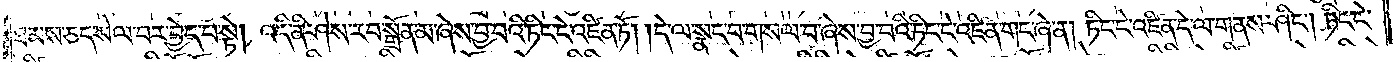ཐམས་ཅད་སེལ་བར་བྱེད་པ་སྟེ། འདི་ནི་ཤེས་རབ་སྒྲོན་མ་ཞེས་བྱ་བའི་ཏིང་ངེ་འཛིན་ཏོ། །དེ་ལ་སྣང་བ་གསལ་བ་ཞེས་བྱ་བའི་ཏིང་ངེ་འཛིན་གང་ཞེ་ན། ཏིང་ངེ་འཛིན་དེ་ལ་གནས་ཤིང༌། ཏིང་ངེ་
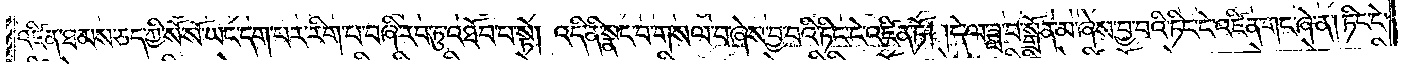འཛིན་ཐམས་ཅད་ཀྱི་སོ་སོ་ཡང་དག་པར་རིག་པ་བཞི་རབ་ཏུ་འཐོབ་པ་སྟེ། འདི་ནི་སྣང་བ་གསལ་བ་ཞེས་བྱ་བའི་ཏིང་ངེ་འཛིན་ཏོ། །དེ་ལ་ཟླ་བ་སྒྲོན་མ་ཞེས་བྱ་བའི་ཏིང་ངེ་འཛིན་གང་ཞེ་ན། ཏིང་ངེ་
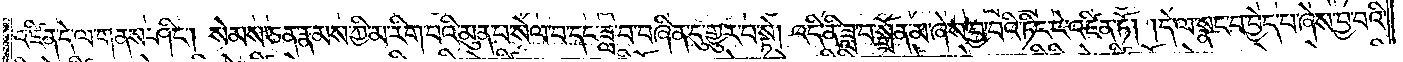འཛིན་དེ་ལ་གནས་ཤིང༌། སེམས་ཅན་རྣམས་ཀྱི་མ་རིག་པའི་མུན་པ་སེལ་བ་དང་ཟླ་བ་བཞིན་དུ་གྱུར་བ་སྟེ། འདི་ནི་ཟླ་བ་སྒྲོན་མ་ཞེས་བྱ་བའི་ཏིང་ངེ་འཛིན་ཏོ། །དེ་ལ་སྣང་བ་བྱེད་པ་ཞེས་བྱ་བའི་
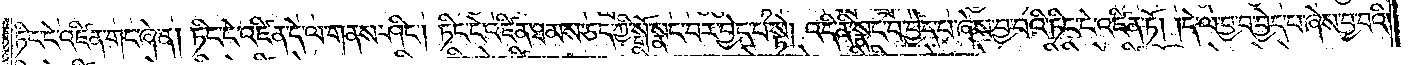ཏིང་ངེ་འཛིན་གང་ཞེ་ན། ཏིང་ངེ་འཛིན་དེ་ལ་གནས་ཤིང༌། ཏིང་ངེ་འཛིན་ཐམས་ཅད་ཀྱི་སྒོ་སྣང་བར་བྱེད་པ་སྟེ། འདི་ནི་སྣང་བ་བྱེད་པ་ཞེས་བྱ་བའི་ཏིང་ངེ་འཛིན་ཏོ། །དེ་ལ་བྱ་བ་བྱེད་པ་ཞེས་བྱ་བའི་
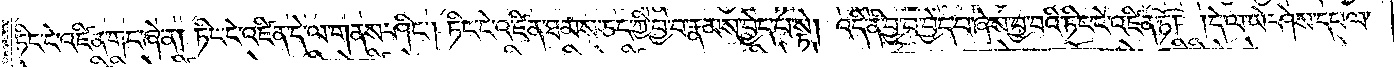ཏིང་ངེ་འཛིན་གང་ཞེ་ན། ཏིང་ངེ་འཛིན་དེ་ལ་གནས་ཤིང༌། ཏིང་ངེ་འཛིན་ཐམས་ཅད་ཀྱི་བྱ་བ་རྣམས་བྱེད་པ་སྟེ། འདི་ནི་བྱ་བ་བྱེད་པ་ཞེས་བྱ་བའི་ཏིང་ངེ་འཛིན་ཏོ། །དེ་ལ་ཡེ་ཤེས་དཔལ་
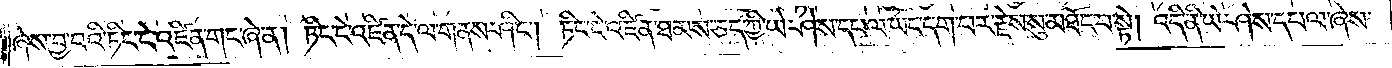ཞེས་བྱ་བའི་ཏིང་ངེ་འཛིན་གང་ཞེ་ན། ཏིང་ངེ་འཛིན་དེ་ལ་གནས་ཤིང༌། ཏིང་ངེ་འཛིན་ཐམས་ཅད་ཀྱི་ཡེ་ཤེས་དཔལ་ཡང་དག་པར་རྗེས་སུ་མཐོང་བ་སྟེ། འདི་ནི་ཡེ་ཤེས་དཔལ་ཞེས་
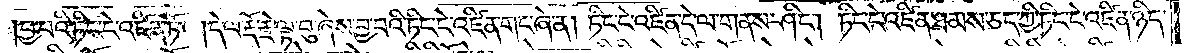བྱ་བའི་ཏིང་ངེ་འཛིན་ཏོ། །དེ་ལ་རྡོ་རྗེ་ལྟ་བུ་ཞེས་བྱ་བའི་ཏིང་ངེ་འཛིན་གང་ཞེ་ན། ཏིང་ངེ་འཛིན་དེ་ལ་གནས་ཤིང༌། ཏིང་ངེ་འཛིན་ཐམས་ཅད་ཀྱི་ཏིང་ངེ་འཛིན་ཉིད་
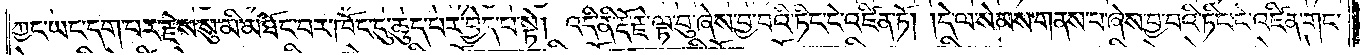ཀྱང་ཡང་དག་པར་རྗེས་སུ་མི་མཐོང་བར་ཁོང་དུ་ཆུད་པར་བྱེད་པ་སྟེ། འདི་ནི་རྡོ་རྗེ་ལྟ་བུ་ཞེས་བྱ་བའི་ཏིང་ངེ་འཛིན་ཏོ། །དེ་ལ་སེམས་གནས་པ་ཞེས་བྱ་བའི་ཏིང་ངེ་འཛིན་གང་
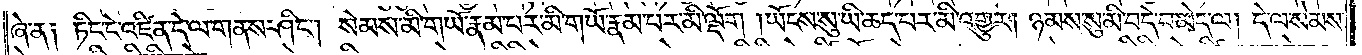ཞེ་ན། ཏིང་ངེ་འཛིན་དེ་ལ་གནས་ཤིང༌། སེམས་མི་གཡོ་རྣམ་པར་མི་གཡོ་རྣམ་པར་མི་ལྡོག །ཡོངས་སུ་ཡི་ཆད་པར་མི་འགྱུར། ཉམས་སུ་མི་བདེ་བ་མེད་ལ། དེ་ལ་སེམས་
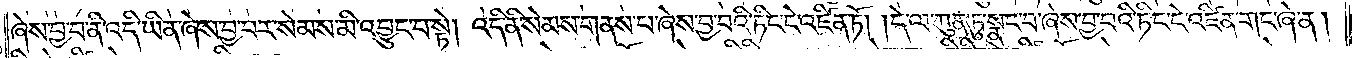ཞེས་བྱ་བ་ནི་འདི་ཡིན་ཞེས་བྱ་བར་སེམས་མི་འབྱུང་བ་སྟེ། འདི་ནི་སེམས་གནས་པ་ཞེས་བྱ་བའི་ཏིང་ངེ་འཛིན་ཏོ། །དེ་ལ་ཀུན་ཏུ་སྣང་བ་ཞེས་བྱ་བའི་ཏིང་ངེ་འཛིན་གང་ཞེ་ན།
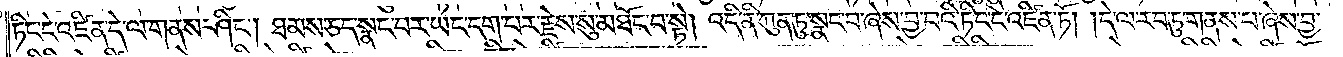ཏིང་ངེ་འཛིན་དེ་ལ་གནས་ཤིང༌། ཐམས་ཅད་སྣང་བར་ཡང་དག་པར་རྗེས་སུ་མཐོང་བ་སྟེ། འདི་ནི་ཀུན་ཏུ་སྣང་བ་ཞེས་བྱ་བའི་ཏིང་ངེ་འཛིན་ཏོ། །དེ་ལ་རབ་ཏུ་གནས་པ་ཞེས་བྱ་
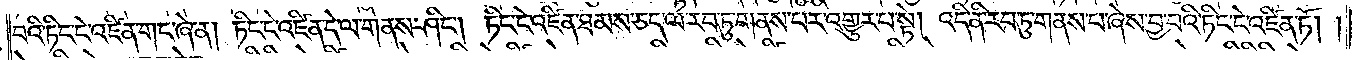བའི་ཏིང་ངེ་འཛིན་གང་ཞེ་ན། ཏིང་ངེ་འཛིན་དེ་ལ་གནས་ཤིང༌། ཏིང་ངེ་འཛིན་ཐམས་ཅད་ལ་རབ་ཏུ་གནས་པར་འགྱུར་བ་སྟེ། འདི་ནི་རབ་ཏུ་གནས་པ་ཞེས་བྱ་བའི་ཏིང་ངེ་འཛིན་ཏོ། །
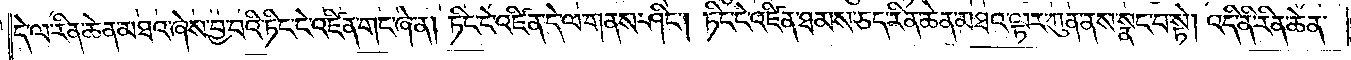དེ་ལ་རིན་ཆེན་མཐའ་ཞེས་བྱ་བའི་ཏིང་ངེ་འཛིན་གང་ཞེ་ན། ཏིང་ངེ་འཛིན་དེ་ལ་གནས་ཤིང༌། ཏིང་ངེ་འཛིན་ཐམས་ཅད་རིན་ཆེན་མཐའ་ལྟར་ཀུན་ནས་སྣང་བ་སྟེ། འདི་ནི་རིན་ཆེན་
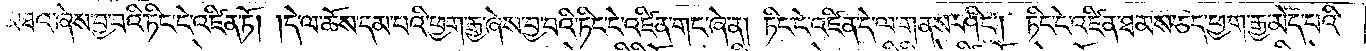མཐའ་ཞེས་བྱ་བའི་ཏིང་ངེ་འཛིན་ཏོ། །དེ་ལ་ཆོས་དམ་པའི་ཕྱག་རྒྱ་ཞེས་བྱ་བའི་ཏིང་ངེ་འཛིན་གང་ཞེ་ན། ཏིང་ངེ་འཛིན་དེ་ལ་གནས་ཤིང༌། ཏིང་ངེ་འཛིན་ཐམས་ཅད་ཕྱག་རྒྱ་མེད་པའི་
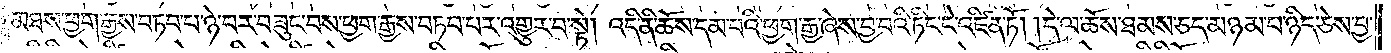མཐས་ཕྱག་རྒྱས་བཏབ་པ་ཉེ་བར་བཟུང་བས་ཕྱག་རྒྱས་བཏབ་པར་འགྱུར་བ་སྟེ། འདི་ནི་ཆོས་དམ་པའི་ཕྱག་རྒྱ་ཞེས་བྱ་བའི་ཏིང་ངེ་འཛིན་ཏོ། །དེ་ལ་ཆོས་ཐམས་ཅད་མཉམ་པ་ཉིད་ཅེས་བྱ་
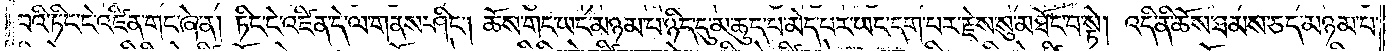བའི་ཏིང་ངེ་འཛིན་གང་ཞེ་ན། ཏིང་ངེ་འཛིན་དེ་ལ་གནས་ཤིང༌། ཆོས་གང་ཡང་མཉམ་པ་ཉིད་དུ་མ་ཆུད་པ་མེད་པར་ཡང་དག་པར་རྗེས་སུ་མཐོང་བ་སྟེ། འདི་ནི་ཆོས་ཐམས་ཅད་མཉམ་པ་
